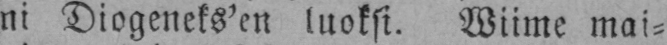ni Diogeneks'en luoksi. Wiime mai-
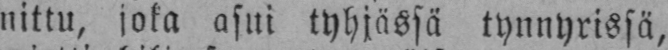nittu, joka asui tyhjässä tynnyrissä,
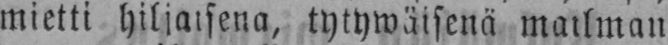mietti hiljaisena, tytywäisenä mailman
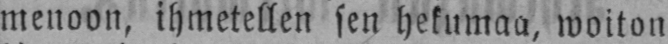menoon, ihmetellen sen hekumaa, woiton
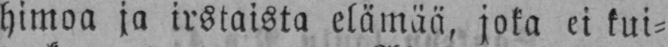himoa ja irstaista elämää, joka ei kui-
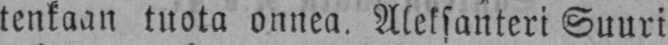tenkaan tuota onnea. Aleksanteri Suuri
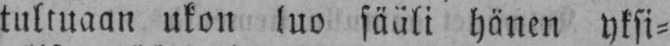tultuaan ukon luo sääli hänen yksi-
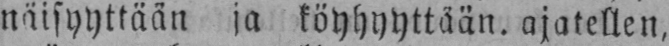näisyyttään ja köyhyyttään, ajatellen,
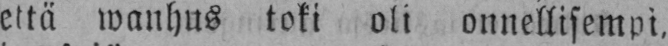että wanhus toki oli onnellisempi,
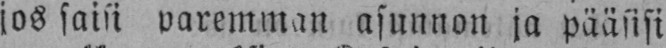jos saisi paremman asunnon ja pääsisi
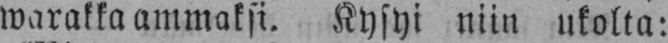warakkaammaksi. Kysyi niin ukolta:
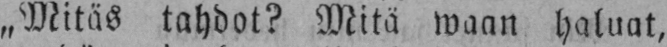„Mitäs tahdot? Mitä waan haluat,
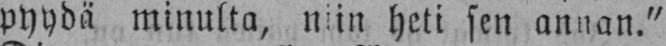pyydä minulta, niin heti sen annan."
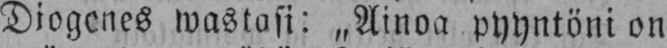Diogenes wastosi: „Ainoa pyyntöni on
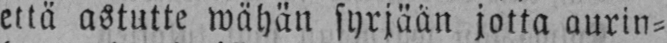että astutte wähän syrjään jotta aurin-
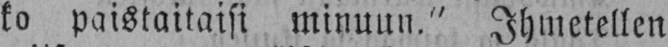ko paistaitaisi minuun." Ihmetellen
